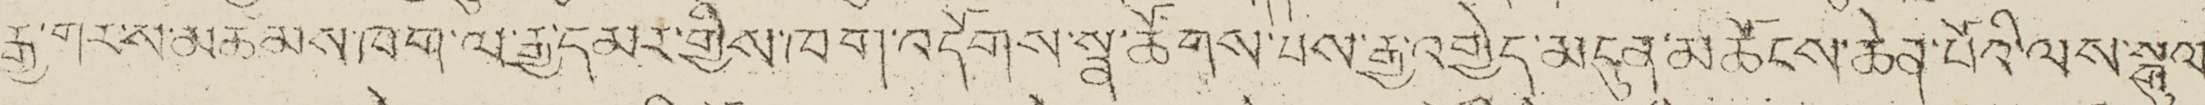རྒྱ་གར་ས་མཚམས་ཁག་ལ་རྒྱ་དམར་གྱིས་ཁག་འདོགས་སྣ་ཚོགས་པས་རྒྱ་འགྱེད་མདུན་མཚོངས་ཆེན་པོའི་ལས་སྒུལ་
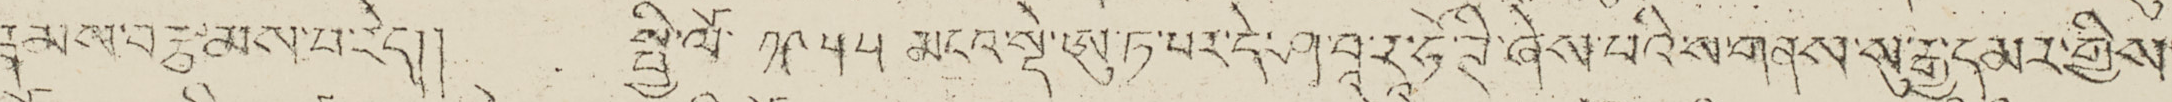རྣམས་བརྩམས་པ་རེད།། སྤྱི་ལོ་ ༡༩༥༥ མངའ་སྡེ་ཨུ་ཏ་པར་དེ་ཤ་བཱ་རཱ་ཧོ་ཊི་ཞེས་པའི་ས་གནས་སུ་རྒྱ་དམར་གྱིས་
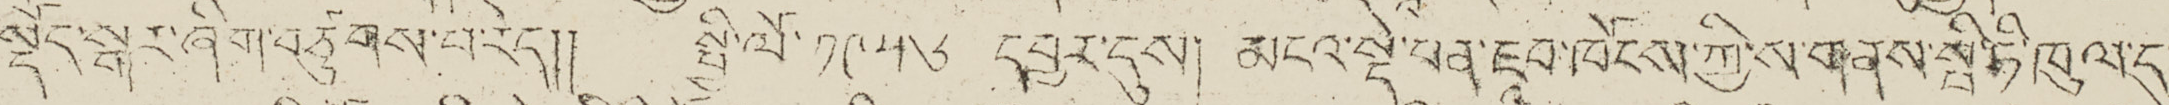སྡོད་སྒར་ཞིག་བཙུགས་པ་རེད།། སྤྱི་ལོ་ ༡༩༥༦ དབྱར་དུས། དབྱར་དུས། མངའ་སྡེ་པན་ཇཱབ་ཁོངས་ཀྱི་ས་གནས་སྦི་ཏི་ཁུལ་དུ་
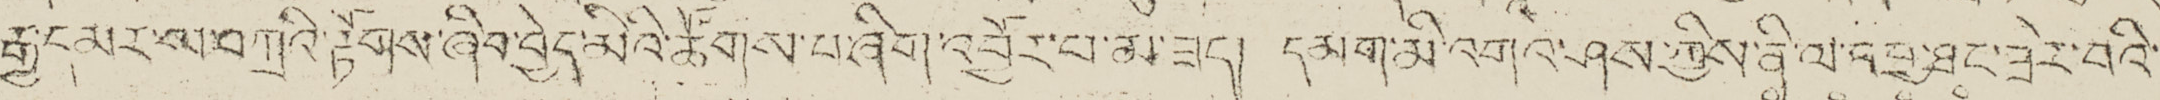རྒྱ་དམར་ས་བཀྲའི་རྟོགས་ཞིབ་བྱེད་མིའི་ཚོགས་པ་ཞིག་འབྱོར་བ་མ་ཟད། དམག་མི་འགའ་ཤས་ཀྱིས་ནི་ལ་འབྱ་ཐང་ཟེར་བའི་
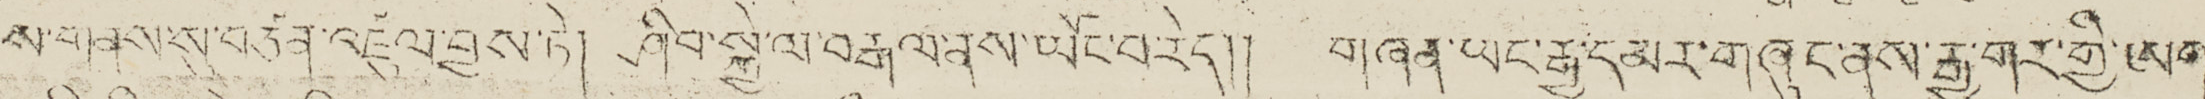ས་གནས་སུ་བཙན་འཛུལ་བྱས་ཏེ། ཤིབ་སྐྱེ་ལ་བརྒལ་ནས་ཡོང་བ་རེད།། གཞན་ཡང་རྒྱ་དམར་གཞུང་ནས་རྒྱ་གར་གྱི་ཨག
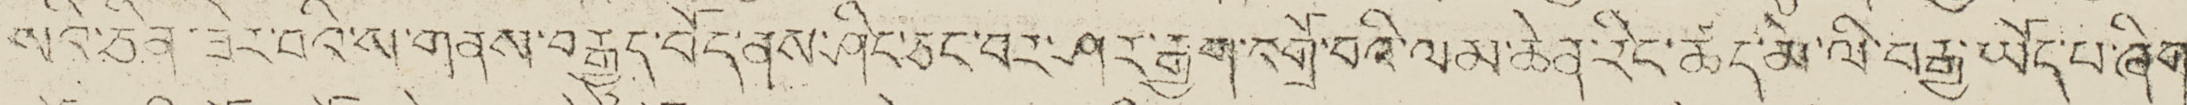སའི་ཅིན་ཟེར་བའི་ས་གནས་བརྒྱུད་བོད་ནས་ཤིང་ཅང་བར་ཤར་རྒྱག་འགྲོ་བའི་ལམ་ཆེན་རིང་ཚད་མེ་ལི་བརྒྱ་ཡོད་པ་ཞིག་
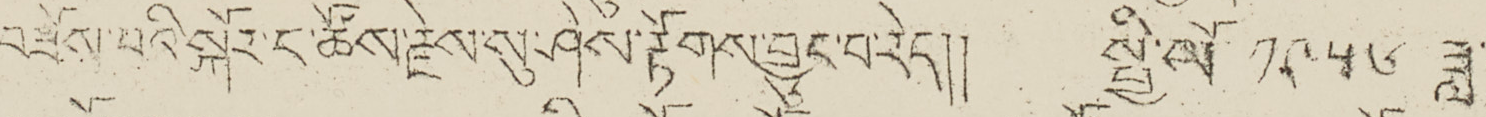བཟོས་པའི་སྐོར་ང་ཚོས་རྗེས་སུ་ཤེས་རྟོགས་བྱུང་བ་རེད།། སྤྱི་ལོ་ ༡༩༤༦ ཟླ་
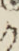༡
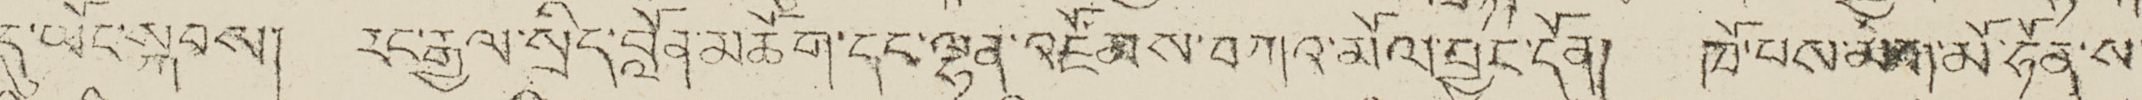དུ་ཡོང་སྐབས། རང་རྒྱལ་སྲིད་བློན་མཆོག་དང་ལྷན་འཛོམས་བཀའ་མོལ་བྱུང་དོན། ཁོ་པས་མེག་མོ་ཧོན་ས་
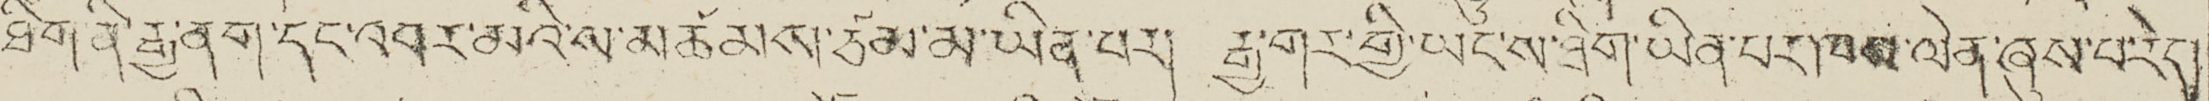ཐིག་ནི་རྒྱ་ནག་དང་འབར་མའི་ས་མཚམས་ཙམ་མ་ཡིན་པར། རྒྱ་གར་གྱི་ཡངས་ཐིག་ཡིན་པར་ཁས་ལེན་ཞུས་པ་རེད།
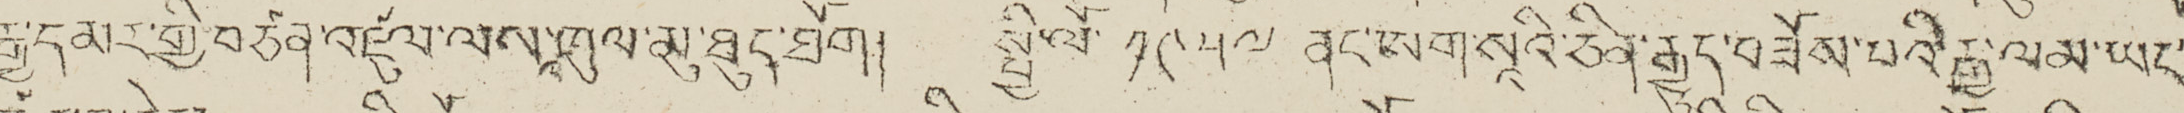རྒྱ་དམར་གྱི་བཙན་འཛུལ་ལས་འཁུལ་མུ་ཐུད་ཐོག། སྤྱི་ལོ་ ༡༩༥༧ ནང་ཨག་སཱའི་ཅིན་རྒྱུད་བཟོད་པའི་རྒྱ་ལམ་ཡང་
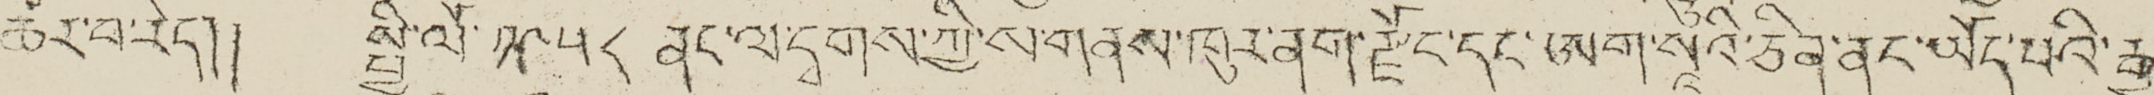ཚར་བ་རེད།། སྤྱི་ལོ་ ༡༩༥༨ ནང་ལ་དྭགས་ཀྱི་ས་གནས་ཁུར་ནག་རྫོང་དང་ཨག་སཱའི་ཅིན་ནང་ཡོད་པའི་རྒྱ་
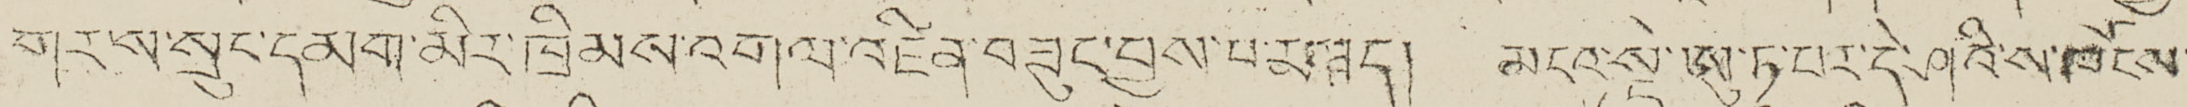གར་ས་སྲུང་དམག་མིར་ཁྲིམས་འགལ་འཛིན་བཟུང་བྱས་པར་མ་ཟད། མངའ་སྡེ་ཨུ་ཏ་པར་དེ་ཤའི་ས་ཁོངས་
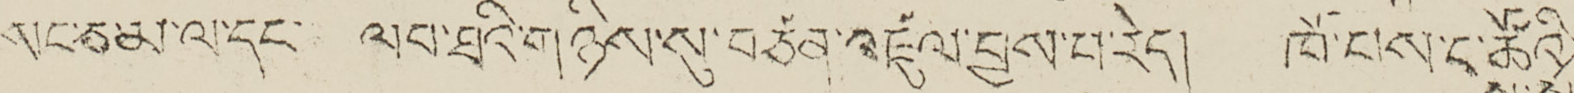སང་ཅ་མ་ལ་དང་ ལབ་ཐའི་གཉིས་སུ་བཙན་འཛུལ་བྱས་པ་རེད། ཁོ་པས་ང་ཚོའི་
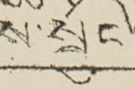ས་སྲུང་
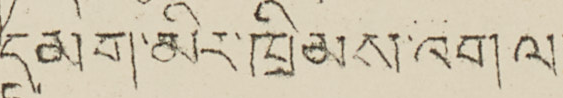དམག་མིར་ཁྲིམས་འགལ་
